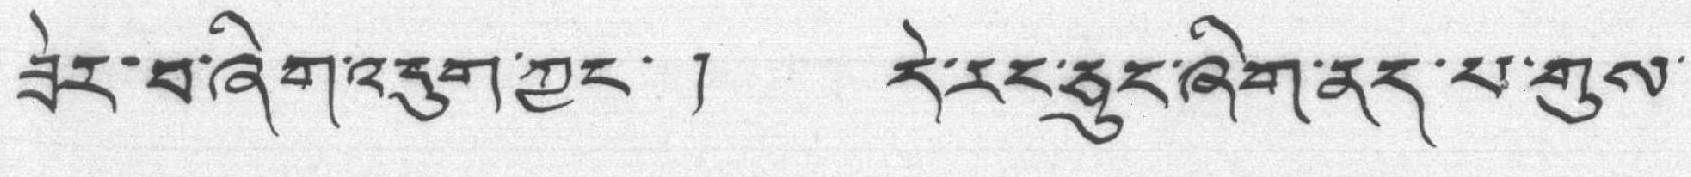ཟེར་བ་ཞིག་འདུག་ཀྱང་ ། དེ་རང་ཅུང་ཞིག་ནད་པ་གུས་
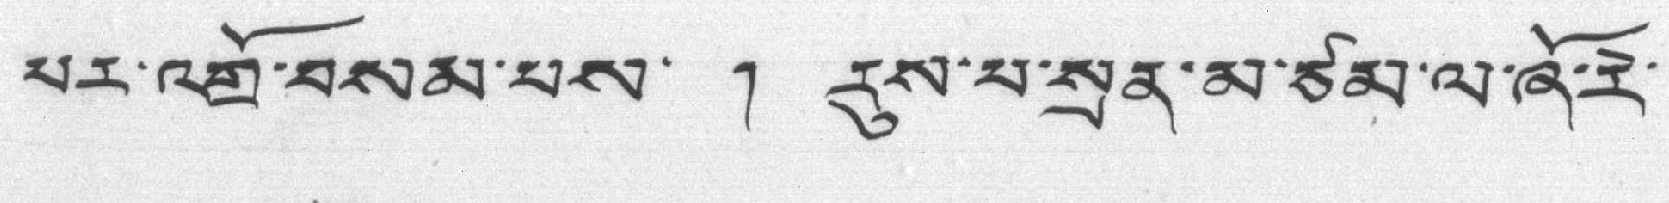པར་འགྲོ་བསམ་པས་ ། རུས་པ་སྲན་མ་ཙམ་ལ་ཞོ་རེ་
